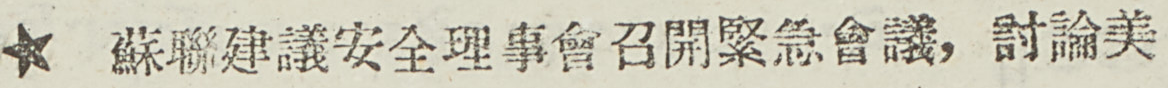★ 蘇聯建議安全理事會召開緊急會議，討論美
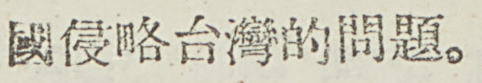國侵略台灣的問題。
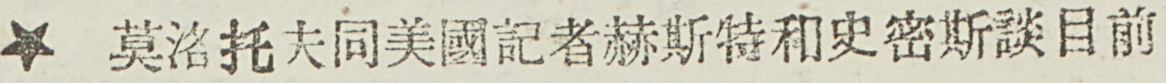★ 莫洛托夫同美國記者赫斯特和史密斯談目前
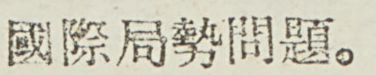國際局勢問題。
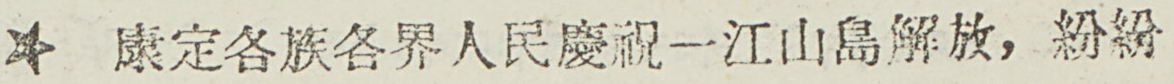★ 康定各族各界人民慶祝一江山島解放，紛紛
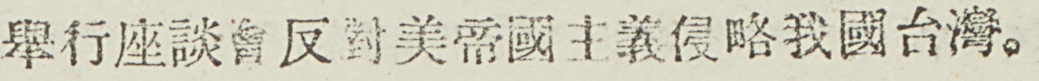舉行座談會反對美帝國主義侵略我國台灣。
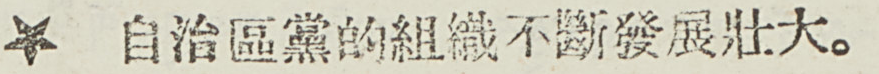★ 自治區黨的組織不斷發展壯大。
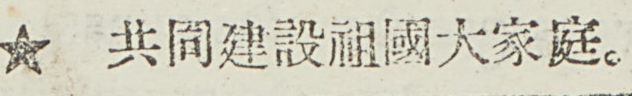★ 共同建設祖國大家庭。
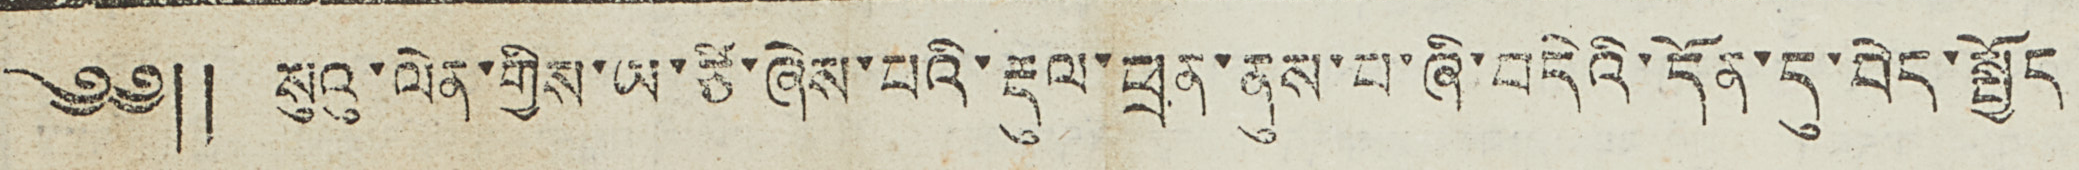༄༅༎ སུའུ་ལེན་གྱིས་ཡ་ཙི་ཞེས་པའི་རྡུལ་ཕྲན་ནུས་པ་ཞི་བདེའི་དོན་དུ་བེད་སྤྱོད
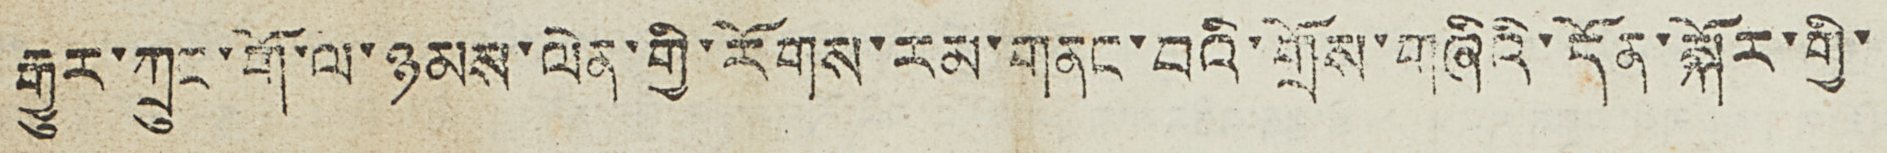རྒྱུར་ཀྲུང་གོ་ལ་ཉམས་ལེན་གྱི་རོགས་རམ་གནང་བའི་གྲོས་གཞིའི་དོན་སྐོར་གྱི་
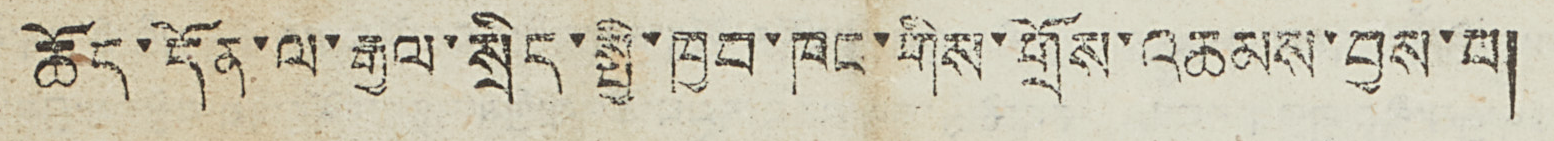ཆོད་དོན་ལ་རྒྱལ་སྲིད་སྤྱི་ཁྱབ་ཁང་གིས་གྲོས་འཆམས་བྱས་པ།
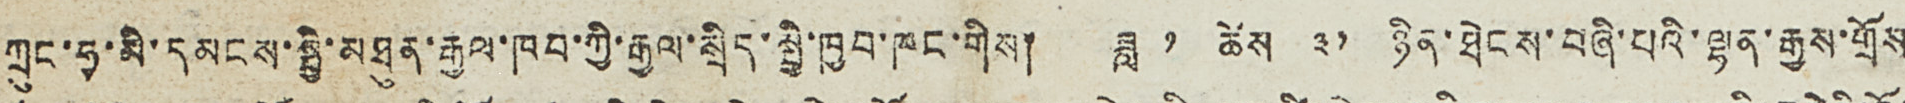ཀྲུང་ཧྭ་མི་དམངས་སྤྱི་མཐུན་རྒྱལ་ཁབ་ཀྱི་རྒྱལ་སྲིད་སྤྱི་ཁྱབ་ཁང་གིས། ཟླ ༡ ཚེས ༣༡ ཉིན་ཐེངས་བཞི་པའི་ལྷན་རྒྱས་གྲོས
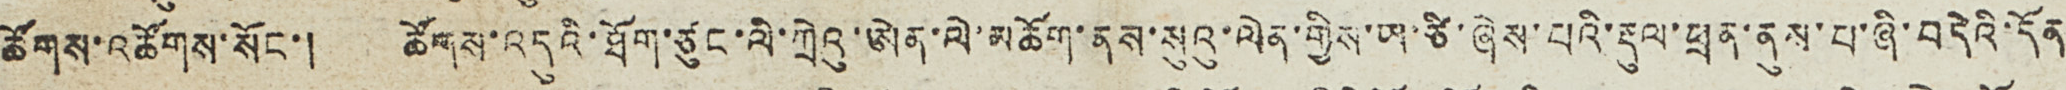ཚོགས་འཚོགས་སོང་། ཚོགས་འདུའི་ཐོག་ཙུང་ལི་ཀྲེའུ་ཨེན་ལེ་མཆོག་ནས་སུའུ་ལེན་གྱིས་ཡ་ཙི་ཞེས་པའི་རྡུལ་ཕྲན་ནུས་པ་ཞི་བདེའི་དོན
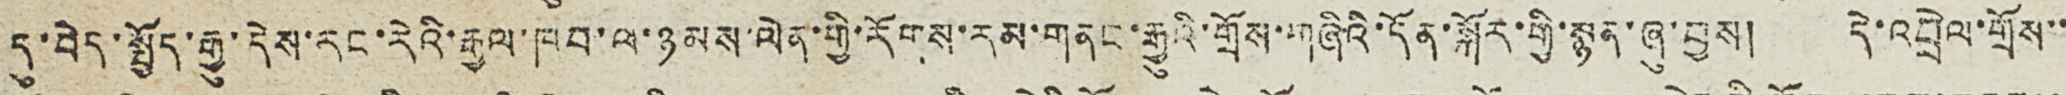དུ་བེད་སྤྱོད་རྒྱུ་དེས་རང་རེའི་རྒྱལ་ཁབ་ལ་ཉམས་ལེན་གྱི་རོགས་རམ་གནང་རྒྱུའི་གྲོས་གཞིའི་དོན་སྐོར་གྱི་སྙམ་ཞུ་བྱས། དེ་འབྲེལ་གྲོས་་
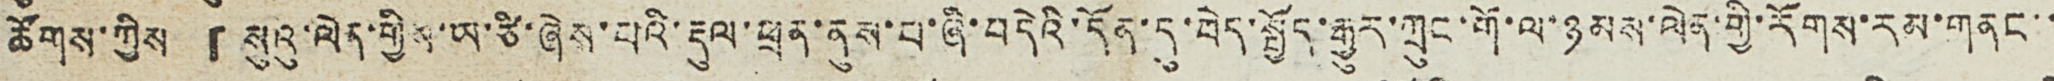ཚོགས་ཀྱིས『སུའུ་ལེན་གྱིས་ཡ་ཙི་ཞེས་པའི་རྡུལ་ཕྲན་ནུས་པ་ཞི་བདེའི་དོན་དུ་བེད་སྤྱོད་རྒྱུར་ཀྲུང་གོ་ལ་ཉམས་ལེན་གྱི་རོགས་རམ་གནང་་
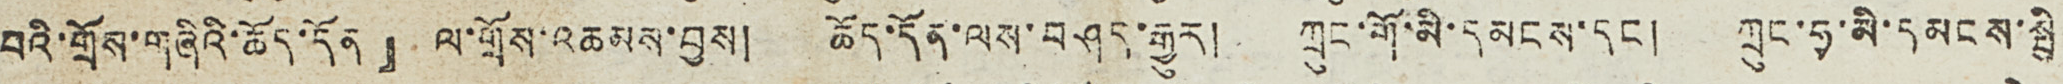བའི་གྲོས་གཞིའི་ཆོད་དོན』ལ་གྲོས་འཆམས་བྱས། ཆོད་དོན་ལས་བཤད་རྒྱུར། ཀྲུང་གོ་མི་དམངས་དང ། ཀྲུང་ཧྭ་མི་དམངས་སྤྱི
